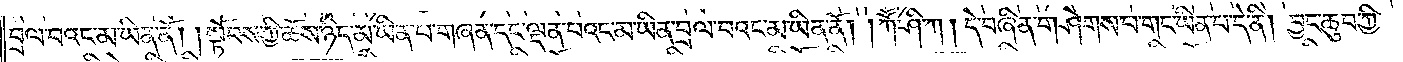བྲལ་བའང་མ་ཡིན་ནོ། །སྟོབས་ཀྱི་ཆོས་ཉིད་མ་ཡིན་པ་གཞན་དང་ལྡན་པའང་མ་ཡིན་བྲལ་བའང་མ་ཡིན་ནོ། །ཀཽ་ཤི་ཀ། དེ་བཞིན་གཤེགས་པ་གང་ཡིན་པ་དེ་ནི། བྱང་ཆུབ་ཀྱི་
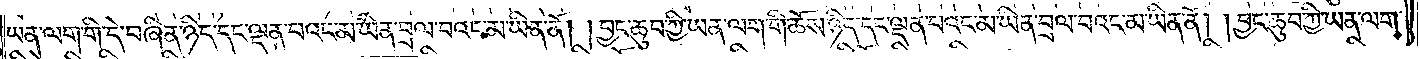ཡན་ལག་གི་དེ་བཞིན་ཉིད་དང་ལྡན་པའང་མ་ཡིན་པ་བྲལ་བའང་མ་ཡིན་ནོ། །བྱང་ཆུབ་ཀྱི་ཡན་ལག་གི་ཆོས་ཉིད་དང་ལྡན་པའང་མ་ཡིན་བྲལ་བའང་མ་ཡིན་ནོ། །བྱང་ཆུབ་ཀྱི་ཡན་ལག་
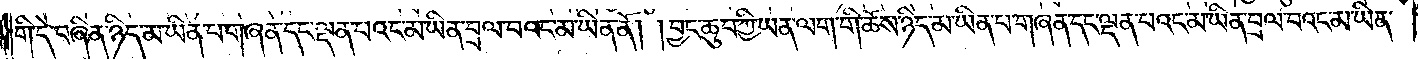གི་དེ་བཞིན་ཉིད་མ་ཡིན་པ་གཞན་དང་ལྡན་པའང་མ་ཡིན་བྲལ་བའང་མ་ཡིན་ནོ། །བྱང་ཆུབ་ཀྱི་ཡན་ལག་གི་ཆོས་ཉིད་མ་ཡིན་པ་གཞན་དང་ལྡན་པའང་མ་ཡིན་བྲལ་བའང་མ་ཡིན་
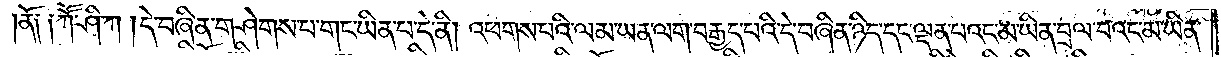ནོ༑ ༑ཀཽ་ཤི་ཀ །དེ་བཞིན་གཤེགས་པ་གང་ཡིན་པ་དེ་ནི། འཕགས་པའི་ལམ་ཡན་ལག་བརྒྱད་པའི་དེ་བཞིན་ཉིད་དང་ལྡན་པའང་མ་ཡིན་བྲལ་བའང་མ་ཡིན་
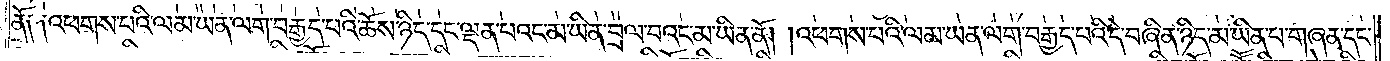ནོ། །འཕགས་པའི་ལམ་ཡན་ལག་བརྒྱད་པའི་ཆོས་ཉིད་དང་ལྡན་པའང་མ་ཡིན་བྲལ་བའང་མ་ཡིན་ནོ། །འཕགས་པའི་ལམ་ཡན་ལག་བརྒྱད་པའི་དེ་བཞིན་ཉིད་མ་ཡིན་པ་གཞན་དང་
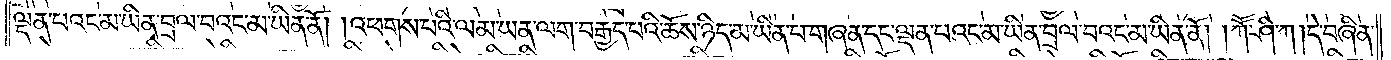ལྡན་པའང་མ་ཡིན་བྲལ་བའང་མ་ཡིན་ནོ། །འཕགས་པའི་ལམ་ཡན་ལག་བརྒྱད་པའི་ཆོས་ཉིད་མ་ཡིན་པ་གཞན་དང་ལྡན་པའང་མ་ཡིན་བྲལ་བའང་མ་ཡིན་ནོ། །ཀཽ་ཤི་ཀ །དེ་བཞིན་
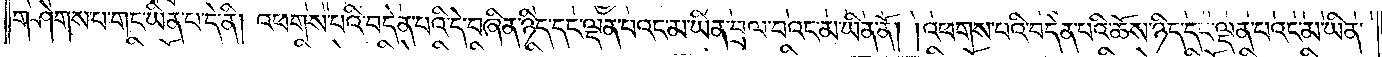གཤེགས་པ་གང་ཡིན་པ་དེ་ནི། འཕགས་པའི་བདེན་པའི་དེ་བཞིན་ཉིད་དང་ལྡན་པའང་མ་ཡིན་བྲལ་བའང་མ་ཡིན་ནོ། །འཕགས་པའི་བདེན་པའི་བདེན་བའི་ཆོས་ཉིད་དང་ལྡན་པའང་མ་ཡིན་
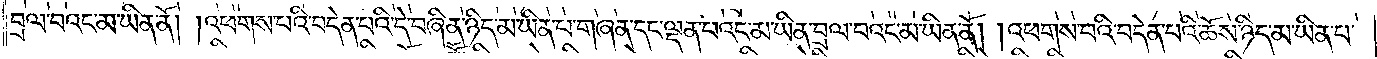བྲལ་བའང་མ་ཡིན་ནོ། །འཕགས་པའི་བདེན་པའི་དེ་བཞིན་ཉིད་མ་ཡིན་པ་གཞན་དང་ལྡན་པའང་མ་ཡིན་བྲལ་བའང་མ་ཡིན་ནོ། །འཕགས་པའི་བདེན་པའི་ཆོས་ཉིད་མ་ཡིན་པ་
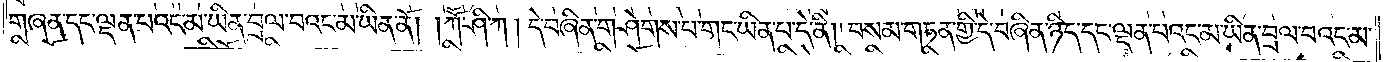གཞན་དང་ལྡན་པའང་མ་ཡིན་བྲལ་བའང་མ་ཡིན་ནོ། །ཀཽ་ཤི་ཀ། དེ་བཞིན་གཤེགས་པ་གང་ཡིན་པ་དེ་ནི། བསམ་གཏན་གྱི་དེ་བཞིན་ཉིད་དང་ལྡན་པའང་མ་ཡིན་བྲལ་བའང་མ་
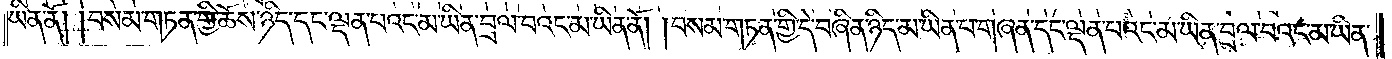ཡིན་ནོ། །བསམ་གཏན་གྱི་ཆོས་ཉིད་དང་ལྡན་པའང་མ་ཡིན་བྲལ་བའང་མ་ཡིན་ནོ། །བསམ་གཏན་གྱི་དེ་བཞིན་ཉིད་མ་ཡིན་པ་གཞན་དང་ལྡན་པའང་ཡིན་བྲལ་བའང་མ་ཡིན་
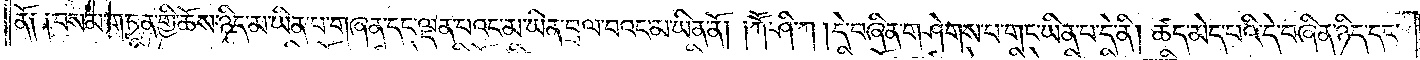ནོ། །བསམ་གཏན་གྱི་ཆོས་ཉིད་མ་ཡིན་པ་གཞན་དང་ལྡན་པའང་མ་ཡིན་བྲལ་བའང་མ་ཡིན་ནོ། །ཀཽ་ཤི་ཀ །དེ་བཞིན་གཤེགས་པ་གང་ཡིན་པ་དེ་ནི། ཚད་མེད་པའི་དེ་བཞིན་ཉིད་དང་
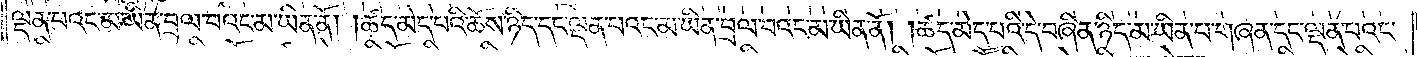ལྡན་པའང་མ་ཡིན་བྲལ་བའང་མ་ཡིན་ནོ། །ཚད་མེད་པའི་ཆོས་ཉིད་དང་ལྡན་པའང་མ་ཡིན་བྲལ་བའང་མ་ཡིན་ནོ། །ཚད་མེད་པའི་དེ་བཞིན་ཉིད་མ་ཡིན་པ་གཞན་དང་ལྡན་པའང་
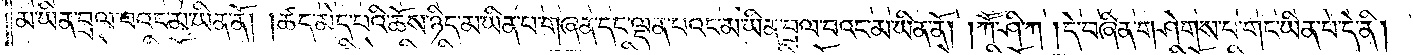མ་ཡིན་བྲལ་བའང་མ་ཡིན་ནོ། །ཚད་མེད་པའི་ཆོས་ཉིད་མ་ཡིན་པ་གཞན་དང་ལྡན་པའང་མ་ཡིན་བྲལ་བའང་མ་ཡིན་ནོ། །ཀཽ་ཤི་ཀ །དེ་བཞིན་གཤེགས་པ་གང་ཡིན་པ་དེ་ནི།
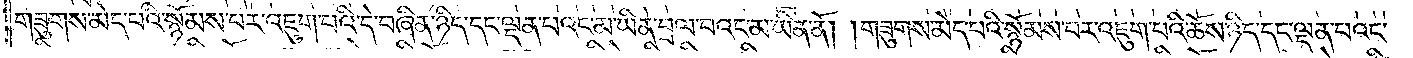གཟུགས་མེད་པའི་སྙོམས་པར་འཇུག་པའི་དེ་བཞིན་ཉིད་དང་ལྡན་པའང་མ་ཡིན་བྲལ་བའང་མ་ཡིན་ནོ། །གཟུགས་མེད་པའི་སྙོམས་པར་འཇུག་པའི་ཆོས་ཉིད་དང་ལྡན་པའང་
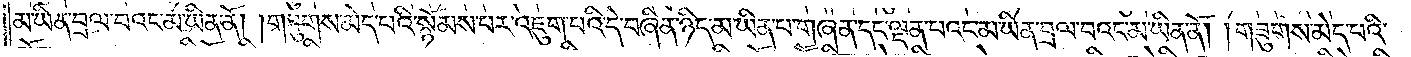མ་ཡིན་བྲལ་བའང་མ་ཡིན་ནོ། །གཟུགས་མེད་པའི་སྙོམས་པར་འཇུག་པའི་དེ་བཞིན་ཉིད་མ་ཡིན་པ་གཞན་དང་ལྡན་པའང་མ་ཡིན་བྲལ་བའང་མ་ཡིན་ནོ། །གཟུགས་མེད་པའི་
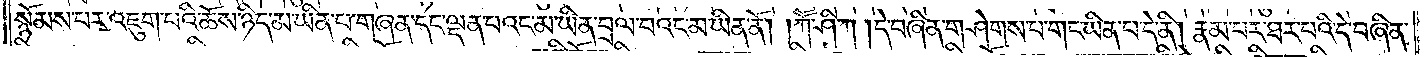སྙོམས་པར་འཇུག་པའི་ཆོས་ཉིད་མ་ཡིན་པ་གཞན་དང་ལྡན་པའང་མ་ཡིན་བྲལ་བའང་མ་ཡིན་ནོ། །ཀཽ་ཤི་ཀ །དེ་བཞིན་གཤེགས་པ་གང་ཡིན་པ་དེ་ནི། རྣམ་པར་ཐར་པའི་དེ་བཞིན་
